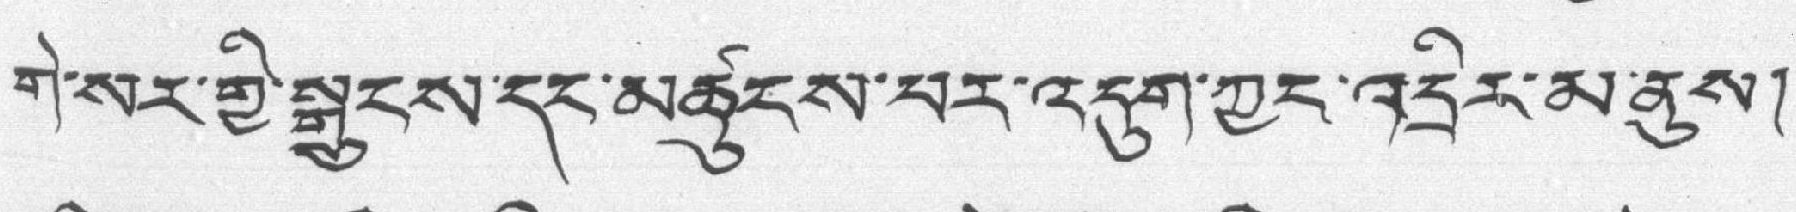གེ་སར་གྱི་སྒྲུངས་དང་མཚུངས་པར་འདུག་ཀྱང་འདྲིར་མ་ནུས།
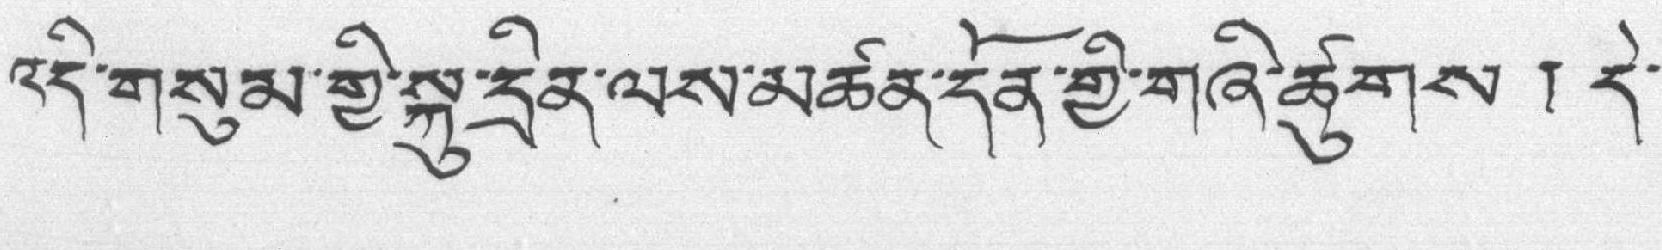འདི་གསུམ་གྱི་སྐུ་དྲིན་ལས་མཚན་དོན་གྱི་གཞི་ཚུགས། དེ་
